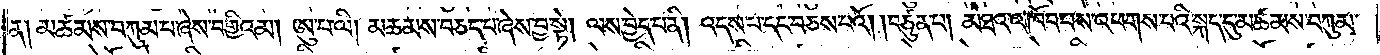ན། མཚམས་བཀུམ་པ་ཞེས་བགྱིའམ། ཨུ་པ་ལི། མཚམས་བཅད་པ་ཞེས་བྱ་སྟེ། ལས་བྱེད་པ་ནི། འདས་པ་དང་བཅས་པའོ། །བཙུན་པ། མཐའ་འཁོབ་པས་འཕགས་པའི་སྐད་དུ་མཚམས་བཀུམ་
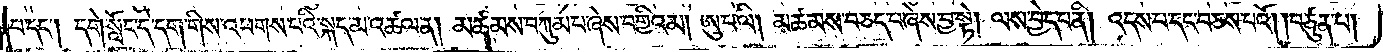པ་དང༌། དགེ་སློང་དེ་དག་གིས་འཕགས་པའི་སྐད་མ་འཚལ་ན། མཚམས་བཀུམ་པ་ཞེས་བགྱིའམ། ཨུ་པ་ལི། མཚམས་བཅད་པ་ཞེས་བྱ་སྟེ། ལས་བྱེད་པ་ནི། འདས་པ་དང་བཅས་པའོ། །བཙུན་པ།
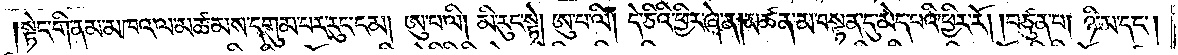།སྟེང་གི་ནམ་མཁའ་ལ་མཚམས་དགུམ་པར་རུང་ངམ། ཨུ་པ་ལི། མི་རུང་སྟེ། ཨུ་པ་ལི། དེ་ཅིའི་ཕྱིར་ཞེ་ན། མཚན་མ་བསྟན་དུ་མེད་པའི་ཕྱིར་རོ། །བཙུན་པ། ཉི་མ་དང༌།
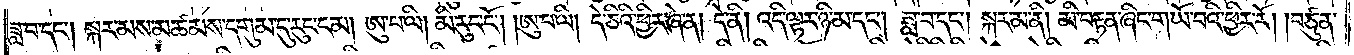ཟླ་བ་དང༌། སྐར་མས་མཚམས་དགུམ་དུ་རུང་ངམ། ཨུ་པ་ལི། མི་རུང་ངོ༌། །ཨུ་པ་ལི། དེ་ཅིའི་ཕྱིར་ཞེ་ན། དེ་ནི། འདི་ལྟར་ཉི་མ་དང༌། ཟླ་བ་དང༌། སྐར་མ་ནི། མི་བརྟན་ཞིང་གཡོ་བའི་ཕྱིར་རོ། །བཙུན་
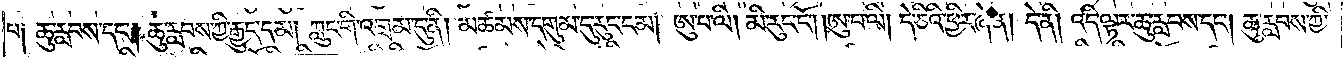པ། ཆུ་རླབས་དང༌། ཆུ་རླབས་ཀྱི་རྒྱུད་དམ། ཀླུང་གི་འགྲམ་དུ་ནི། མཚམས་དགུམ་དུ་རུང་ངམ། ཨུ་པ་ལི། མི་རུང་ངོ༌། །ཨུ་པ་ལི། དེ་ཅིའི་ཕྱིར་ཞེ་ན། དེ་ནི། འདི་ལྟར་ཆུ་རླབས་དང༌། ཆུ་རླབས་ཀྱི་
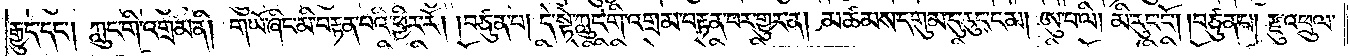རྒྱུད་དང༌། ཀླུང་གི་འགྲམ་ནི། གཡོ་ཞིང་མི་བརྟན་པའི་ཕྱིར་རོ། །བཙུན་པ། དེ་སྟེ་ཀླུང་གི་འགྲམ་བརྟན་པར་གྱུར་ན། མཚམས་དགུམ་དུ་རུང་ངམ། ཨུ་པ་ལི། མི་རུང་ངོ༌། །བཙུན་པ། རྫུ་འཕྲུལ་
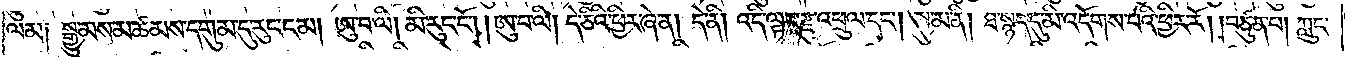ལམ། སྒྱུ་མས་མཚམས་དགུམ་དུ་རུང་ངམ། ཨུ་པ་ལི། མི་རུང་ངོ༌། །ཨུ་པ་ལི། དེ་ཅིའི་ཕྱིར་ཞེ་ན། དེ་ནི། འདི་ལྟར་རྫུ་འཕྲུལ་དང༌། སྒྱུ་མ་ནི། ཐ་སྙད་དུ་མི་འདོགས་པའི་ཕྱིར་རོ། །བཙུན་པ། ཀླུང་
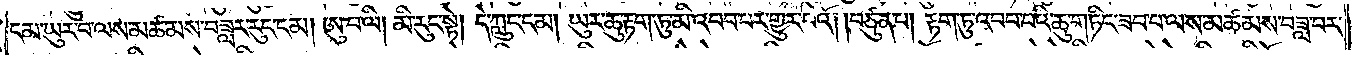ངམ་ཡུར་བ་ལས་མཚམས་བཟླར་རུང་ངམ། ཨུ་པ་ལི། མི་རུང་སྟེ། དེ་ཀླུང་ངམ། ཡུར་ཆུ་རྟག་ཏུ་མི་འབབ་པར་གྱུར་པའོ། །བཙུན་པ། རྟག་ཏུ་འབབ་པའི་ཆུ་གཏིང་ཟབ་པ་ལས་མཚམས་བཟླ་བར་
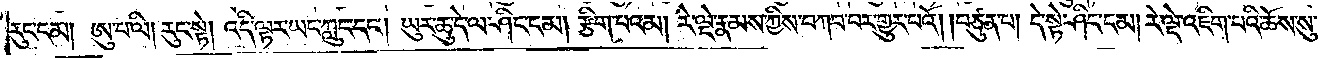རུང་ངམ། ཨུ་པ་ལི། རུང་སྟེ། འདི་ལྟར་ཡང་ཀླུང་དང༌། ཡུར་ཆུ་དེ་ལ་ཤིང་ངམ། རྩིག་པའམ། རེ་ལྡེ་རྣམས་ཀྱིས་བཀབ་པར་གྱུར་པའོ། །བཙུན་པ། དེ་སྟེ་ཤིང་ངམ། རེ་ལྡེ་འཇིག་པའི་ཆོས་སུ་
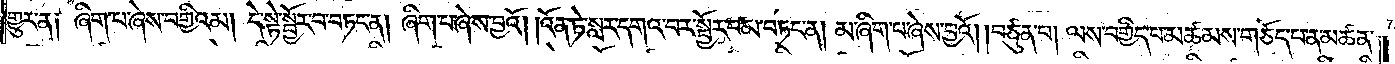གྱུར་ན། ཞིག་པ་ཞེས་བགྱིའམ། དེ་སྟེ་སྦྱོར་བ་བཏང་ན། ཞིག་པ་ཞེས་བྱའོ། །འོན་ཏེ་སླར་དགའ་བར་སྦྱོར་བམ་བཏང་ན། མ་ཞིག་པ་ཞེས་བྱའོ། །བཙུན་པ། ལས་བགྱིད་པ་མཚམས་གཅོད་པ་ན་མཚན་
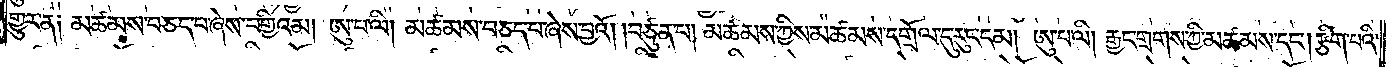གྱུར་ན། མཚམས་བཅད་པ་ཞེས་བགྱིའམ། ཨུ་པ་ལི། མཚམས་བཅད་པ་ཞེས་བྱའོ། །བཙུན་པ། མཚམས་ཀྱིས་མཚམས་དགྲོལ་དུ་རུང་ངམ། ཨུ་པ་ལི། རྒྱང་གྲགས་ཀྱི་མཚམས་དང༌། རྩིག་པའི་
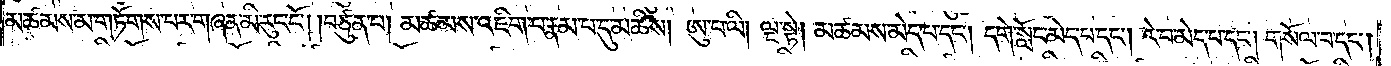མཚམས་མ་གཏོགས་པར་གཞན་མི་རུང་ངོ༌། །བཙུན་པ། མཚམས་འཇིག་པ་རྣམ་པ་དུ་མཆིས། ཨུ་པ་ལི། ལྔ་སྟེ། མཚམས་མེད་པ་དང༌། དགེ་སློང་མེད་པ་དང༌། རེ་བ་མེད་པ་དང༌། གསོལ་བ་དང༌།
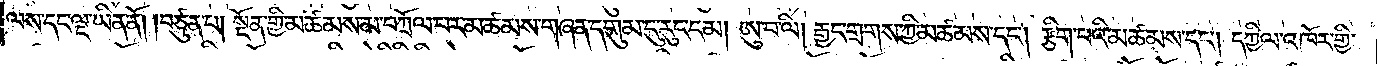ལས་དང་ལྔ་ཡིན་ནོ། །བཙུན་པ། སྔོན་གྱི་མཚམས་མ་བཀྲོལ་པར་མཚམས་གཞན་དགུམ་དུ་རུང་ངམ། ཨུ་པ་ལི། རྒྱང་གྲགས་ཀྱི་མཚམས་དང༌། རྩིག་པའི་མཚམས་དང༌། དཀྱིལ་འཁོར་གྱི་
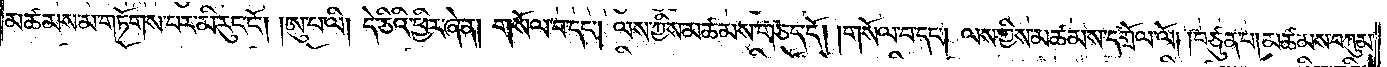མཚམས་མ་གཏོགས་པར་མི་རུང་ངོ༌། །ཨུ་པ་ལི། དེ་ཅིའི་ཕྱིར་ཞེ་ན། གསོལ་པ་དང༌། ལས་ཀྱིས་མཚམས་གཅད་དོ། །གསོལ་པ་དང༌། ལས་ཀྱིས་མཚམས་དགྲོལ་ལོ། །བཙུན་པ། མཚམས་བཀུམ་
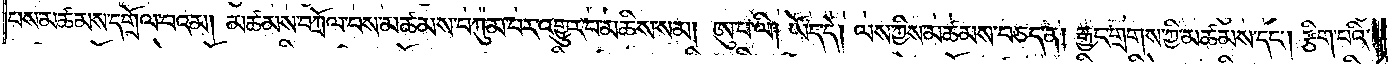པས་མཚམས་དགྲོལ་བའམ། མཚམས་བཀྲོལ་བས་མཚམས་བཀུམ་པར་འགྱུར་པ་མཆིས་སམ། ཨུ་པ་ལི། ཡོད་དེ། ལས་ཀྱིས་མཚམས་བཅད་ན། རྒྱང་གྲགས་ཀྱི་མཚམས་དང༌། རྩིག་པའི་
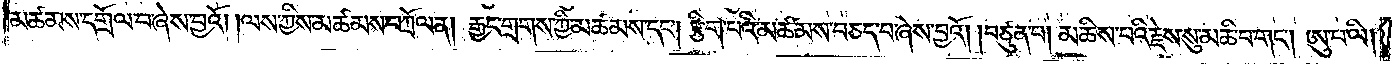མཚམས་དགྲོལ་པ་ཞེས་བྱའོ། །ལས་ཀྱིས་མཚམས་བཀྲོལ་ན། རྒྱང་གྲགས་ཀྱི་མཚམས་དང༌། རྩིག་པའི་མཚམས་བཅད་པ་ཞེས་བྱའོ། །བཙུན་པ། མཆིས་པའི་རྗེས་སུ་མཆི་བ་གང༌། ཨུ་པ་ལི།
